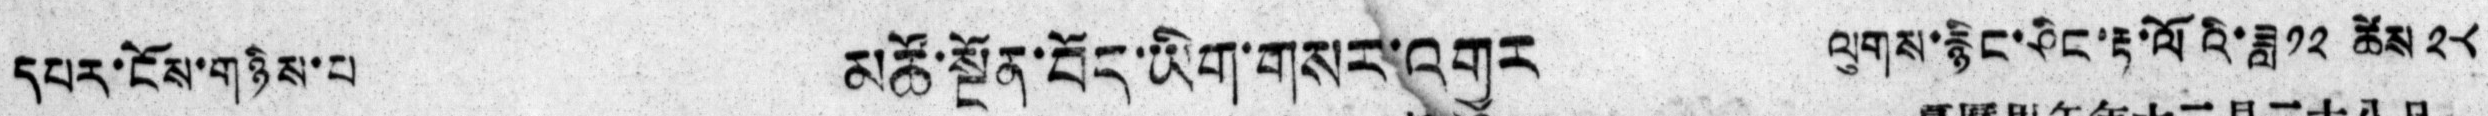དཔར་ངོས་གཉིས་པ། མཚོ་སྔོན་བོད་ཡིག་གསར་འགྱུར ལུགས་རྙིང་ཤིང་རྟ་ལོའི་ཟླ༡༢ ཚེས༢༨
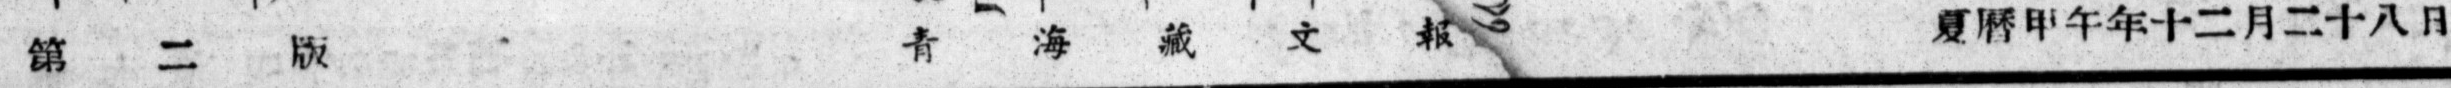第 二 版 青 海 藏 文 報 夏曆甲午年十二月二十八日
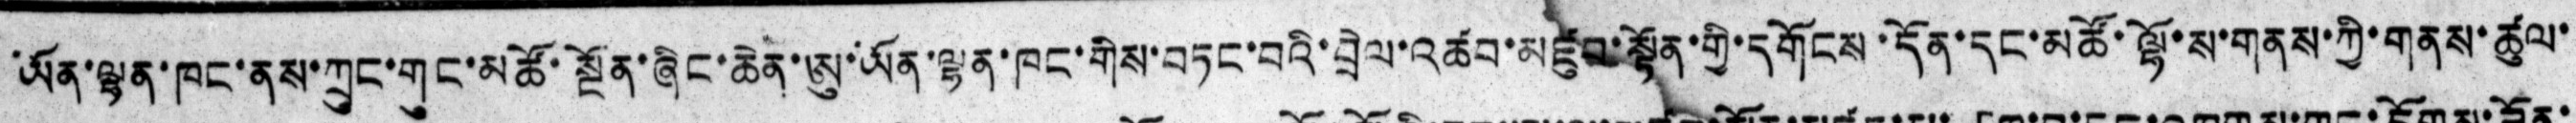ཡོན་ལྷན་ཁང་ནས་ཀྲུང་གུང་མཚོ་སྔོན་ཞིང་ཆེན་ཨུ་ཡོན་ལྷན་ཁང་གིས་བཏང་བའི་བྲེལ་འཚབ་མཛུབ་སྣོནགྱིདགོངས་དོན་དང་མཚོ་ལྷོ་ས་གནས་ཀྱི་གནས་ཚུལ་
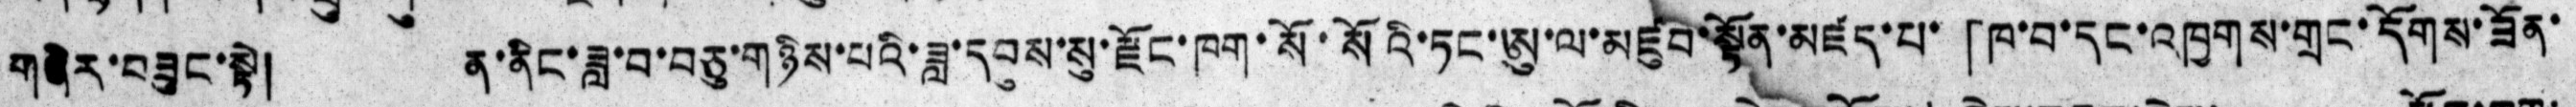གཞིར་བཟུང་སྟེ། ན་ནིང་ཟླ་བ་བཅུ་གཉིས་པའི་ཟླ་དབུས་སུ་རྫོང་ཁག་སོ་སོའི་ཏང་ཨུ་ལ་མཛུབ་སྟོན་མཛད་པ་「ཁ་བ་དང་འཁྱགས་གྲང་དོགས་ཟོན་
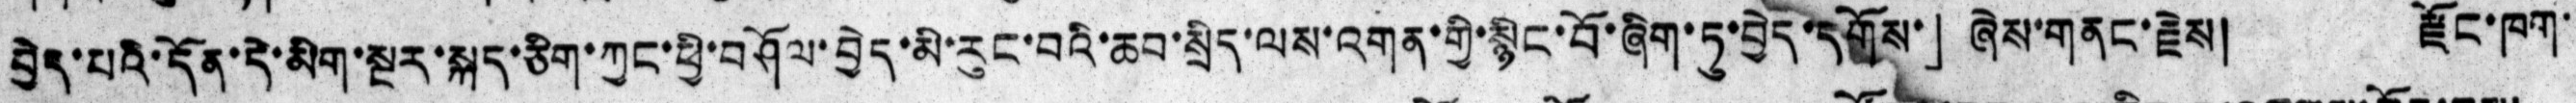བྱེད་པའི་དོན་དེ་མིག་སྔར་སྐད་ཅིག་ཀྱང་ཕྱི་བཤོལ་བྱེད་མི་རུང་བའི་ཆབ་སྲིད་ལས་འགན་གྱི་སྙིང་བོ་ཞིག་ཏུ་བྱེད་དགོས་」ཞེས་གནང་རྗེས། རྫོང་ཁག་
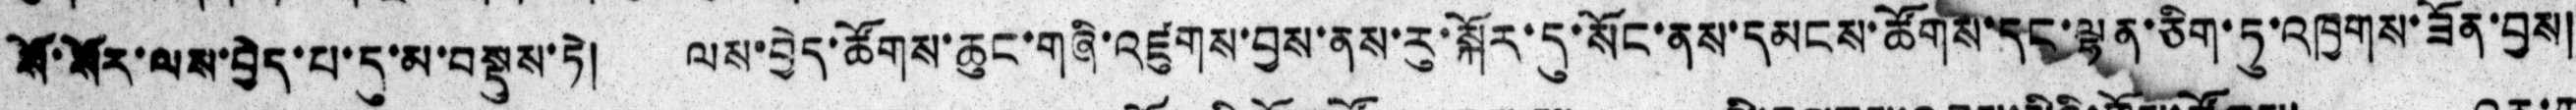སོ་སོར་ལས་བྱེད་པ་དུ་མ་བསྡུས་ཏེ། ལས་བྱེད་ཚོགས་ཆུང་གཞི་འཛུགས་བྱས་ནས་རུ་སྐོར་དུ་སོང་ནས་དམངས་ཚོགས་དང་ལྡན་ཅིག་ཏུ་འཁྱགས་ཟོན་བྱས།
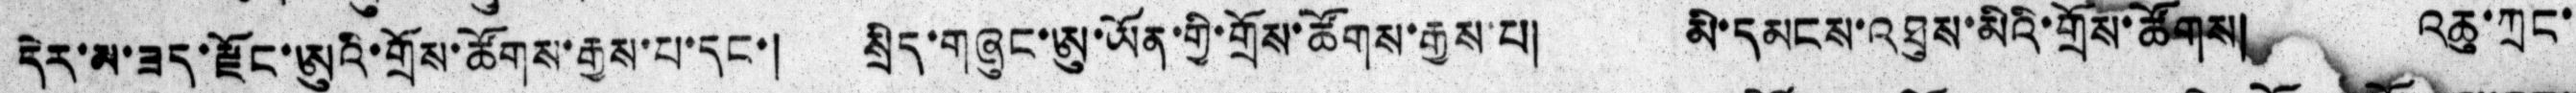དེར་མ་ཟད་རྫོང་ཨུའི་གྲོས་ཚོགས་རྒྱས་པ་དང་། སྲིད་གཞུང་ཨུ་ཡོན་གྱི་གྲོས་ཚོགས་རྒྱས་པ། མི་དམངས་འཐུས་མིའི་གྲོས་ཚོགས འཆུ་ཀྲང་
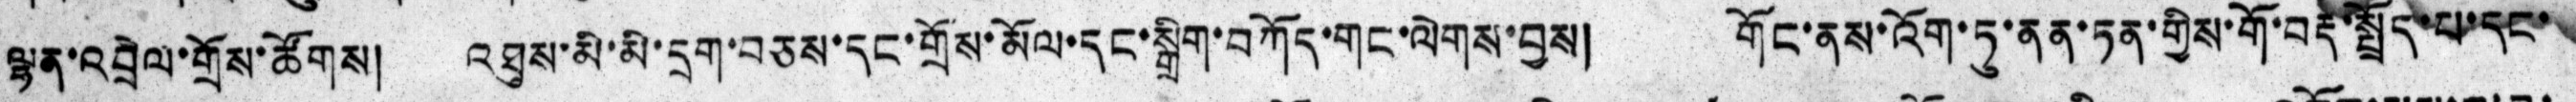ལྷན་འབྲེལ་གྲོས་ཚོགས། འཐུས་མི་མི་དྲག་བཅས་དང་གྲོས་མོལ་དང་སྒྲིག་བཀོད་གང་ལེགས་བྱས། གོང་ནས་འོག་ཏུ་ནན་ཏན་གྱིས་གོ་བརྡ་སྤྲོད་པ་དང་
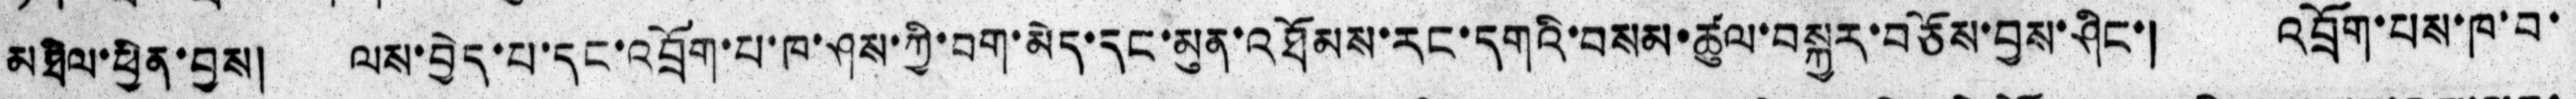མཐིལ་ཕྱིན་བྱས། ལས་བྱེད་པ་དང་འབྲོག་པ་ཁ་ཤས་ཀྱི་བག་མེད་དང་མུན་འཐོམས་རང་དགའི་བསམ་ཚུལ་བསྐྱར་བཅོས་བྱས་ཤིང་། འབྲོག་པས་ཁ་བ་
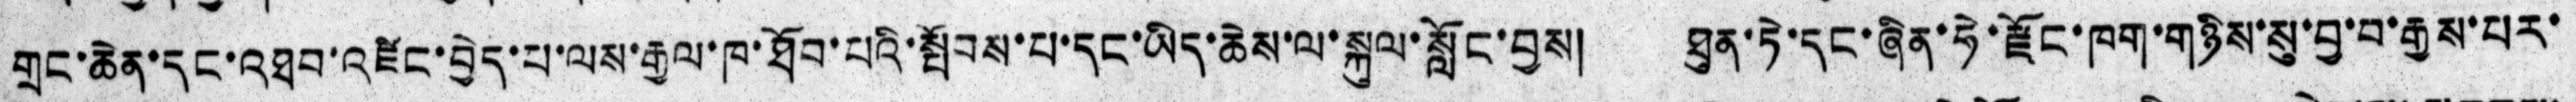གྲང་ཆེན་དང་འཐབ་འཛིང་བྱེད་པ་ལས་རྒྱལ་ཁ་ཐོབ་པའི་སྤོབས་པ་དང་ཡིད་ཆེས་ལ་སྐུལ་སློང་བྱས། ཐུན་ཏེ་དང་ཞིན་ཧེ་རྫོང་ཁག་གཉིས་སུ་བྱ་བ་རྒྱས་པར་
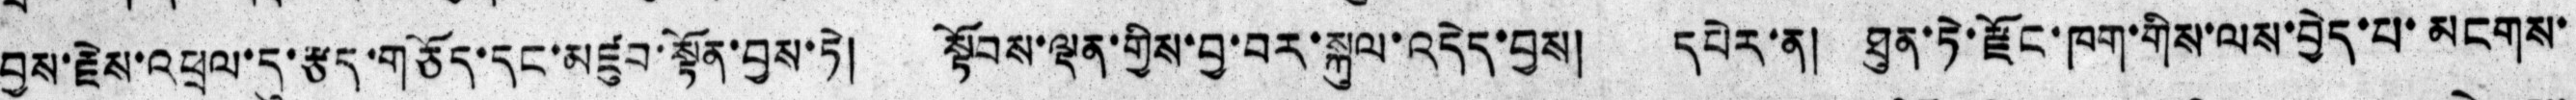བྱས་རྗེས་འཕྲལ་དུ་རྩད་གཅོད་དང་མཛུབ་སྟོན་བྱས་ཏེ། སྟོབས་ལྡན་གྱིས་བྱ་བར་སྐུལ་འདེད་བྱས། དཔེར་ན། ཐུན་ཏེ་རྫོང་ཁག་གིས་ལས་བྱེད་པ་མངགས་
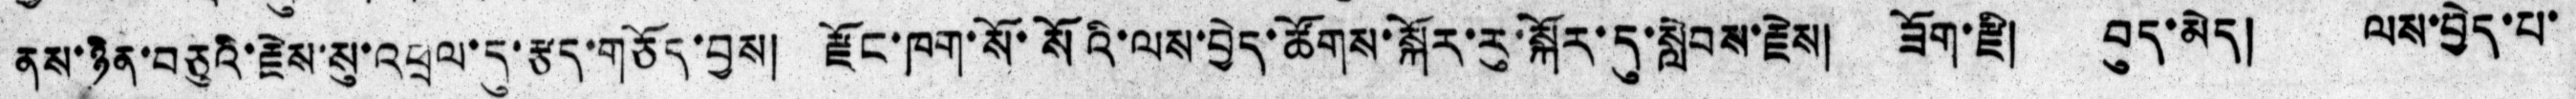ནས་ཉིན་བཅུའི་རྗེས་སུ་འཕྲལ་དུ་རྩད་གཅོད་བྱས། རྫོང་ཁག་སོ་སོའི་ལས་བྱེད་ཚོགས་སྐོར་རུ་སྐོར་དུ་སླེབས་རྗེས། ཟོག་རྫི། བུད་མེད། ལས་བྱེད་པ་
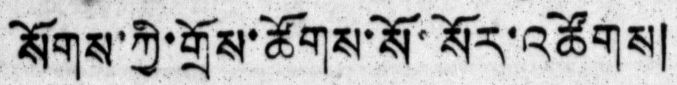སོགས་ཀྱི་གྲོས་ཚོགས་སོ་སོར་འཚོགས།
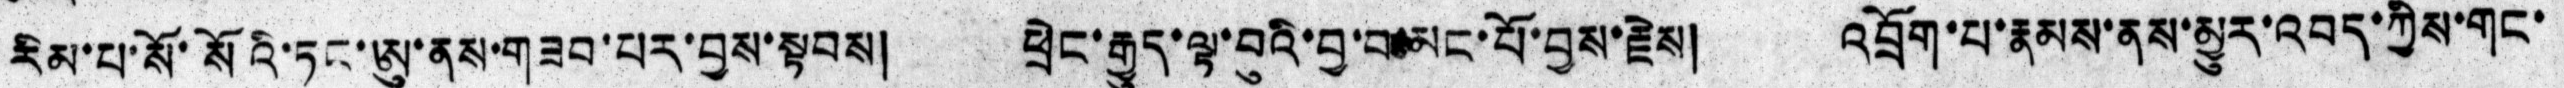རིམ་པ་སོ་སོའི་ཏང་ཨུ་ནས་གཟབ་པར་བྱས་སྟབས། ཕྲེང་རྒྱུད་ལྟ་བུའི་བྱ་བམང་པོ་བྱས་རྗེས། འབྲོག་པ་རྣམས་ནས་མྱུར་འབད་ཀྱིས་གང་
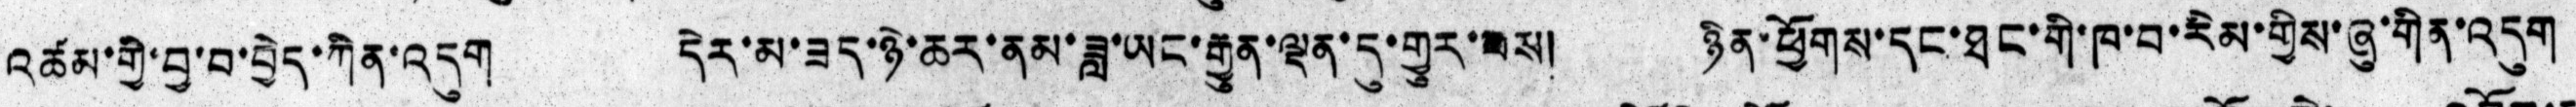གྱི་བྱ་བ་བྱེད་ཀིན་འདུག དེར་མ་ཟད་ཉེ་ཆར་ནམ་ཟླ་ཡང་རྒྱུན་ལྡན་དུ་གྱུར་བས། ཉིན་ཕྱོགས་དང་ཐང་གི་ཁ་བ་རིམ་གྱིས་ཞུ་གིན་འདུག
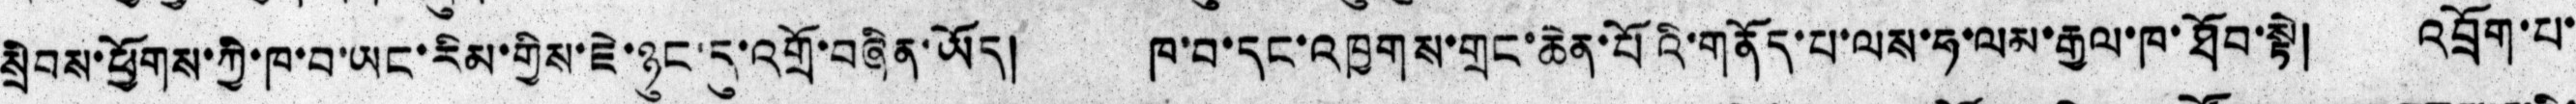སྲེབས་ཕྱོགས་ཀྱི་ཁ་བ་ཡང་རིམ་གྱིས་ཇེ་ཉུང་དུ་འགྲོ་བཞིན་ཡོད། ཁ་བ་དང་འཁྱགས་གྲང་ཆེན་པོའི་གནོད་པ་ལས་ཧ་ལམ་རྒྱལ་ཁ་ཐོབ་སྟེ། འབྲོག་པ་
